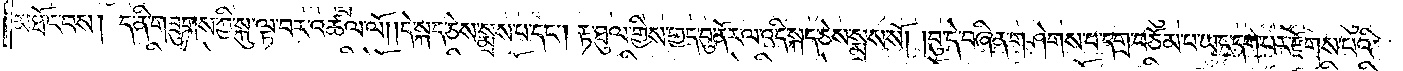མཐོང་བས། ད་ནི་གཟུགས་ཀྱི་སྐུ་ལྟ་བར་འཚལ་ལོ། །དེ་སྐད་ཅེས་སྨྲས་པ་དང༌། རྟ་ཐུལ་གྱིས་གྱད་བུ་ནོར་ལ་འདི་སྐད་ཅེས་སྨྲས་སོ། །བུ་དེ་བཞིན་གཤེགས་པ་དགྲ་བཅོམ་པ་ཡང་དག་པར་རྫོགས་པའི་
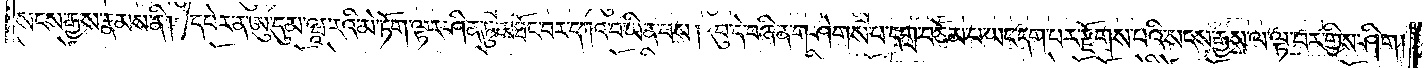སངས་རྒྱས་རྣམས་ནི། དཔེར་ན་ཨུ་དུམ་ཝཱ་རའི་མེ་ཏོག་ལྟར་ཤིན་ཏུ་མཐོང་བར་དཀའ་བ་ཡིན་པས། བུ་དེ་བཞིན་གཤེགས་པ་དགྲ་བཅོམ་པ་ཡང་དག་པར་རྫོགས་པའི་སངས་རྒྱས་ལ་ལྟ་བར་གྱིས་ཤིག །
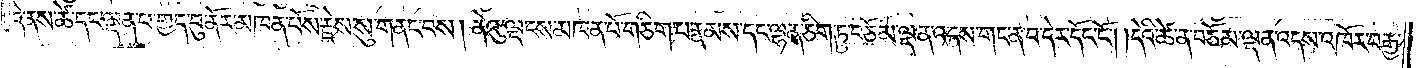དེ་ནས་ཚེ་དང་ལྡན་པ་གྱད་བུ་ནོར་མཁན་པོས་རྗེས་སུ་གནང་བས། ནེའུ་ལྡངས་མཁན་པོ་གཅིག་པ་རྣམས་དང་ལྷན་ཅིག་ཏུ་བཅོམ་ལྡན་འདས་གང་ན་བ་དེར་དོང་ངོ༌། །དེའི་ཚེ་ན་བཅོམ་ལྡན་འདས་འཁོར་བརྒྱ་
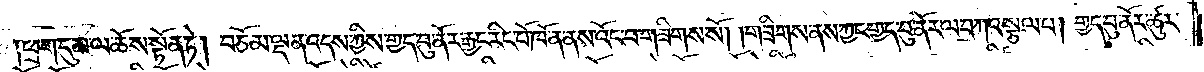ཕྲག་དུ་མ་ལ་ཆོས་སྟོན་ཏེ། བཅོམ་ལྡན་འདས་ཀྱིས་གྱད་བུ་ནོར་རྒྱང་རིང་པོ་ཁོ་ན་ནས་འོང་བ་གཟིགས་སོ། །གཟིགས་ནས་ཀྱང་གྱད་བུ་ནོར་ལ་བཀའ་སྩལ་པ། གྱད་བུ་ནོར་ཚུར་
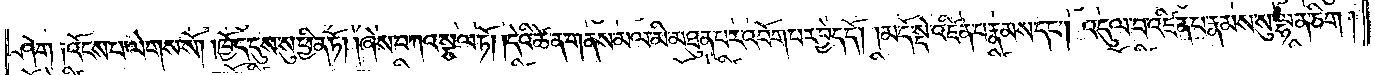ཤོག །འོངས་པ་ལེགས་སོ། །ཁྱོད་དུས་སུ་ཕྱིན་ཏོ། །ཞེས་བཀའ་སྩལ་ཏོ། །དེའི་ཚེ་ན་གནས་མལ་མི་མཐུན་པར་འབོག་པར་བྱེད་དོ། །མདོ་སྡེ་འཛིན་པ་རྣམས་དང༌། འདུལ་བ་འཛིན་པ་རྣམས་སུ་ལྷན་ཅིག།
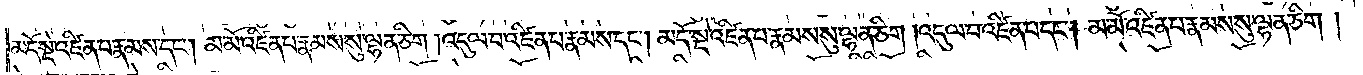མདོ་སྡེ་འཛིན་པ་རྣམས་དང༌། མ་མོ་འཛིན་པ་རྣམས་སུ་ལྷན་ཅིག །འདུལ་བ་འཛིན་པ་རྣམས་དང༌། མདོ་སྡེ་འཛིན་པ་རྣམས་སུ་ལྷན་ཅིག །འདུལ་བ་འཛིན་པ་དང༌། མ་མོ་འཛིན་པ་རྣམས་སུ་ལྷན་ཅིག །
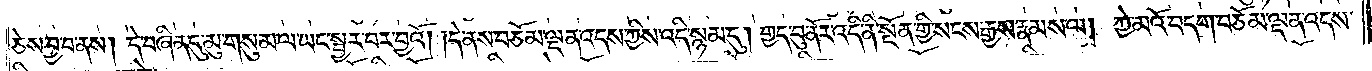ཅེས་བྱ་བ་ནས། དེ་བཞིན་དུ་མུ་གསུམ་ལ་ཡང་སྦྱར་བར་བྱའོ། །དེ་ནས་བཅོམ་ལྡན་འདས་ཀྱིས་འདི་སྙམ་དུ། གྱད་བུ་ནོར་འདི་ནི་སྔོན་གྱི་སངས་རྒྱས་རྣམས་ལ། ཀྱེ་མའོ་བདག་བཅོམ་ལྡན་འདས་
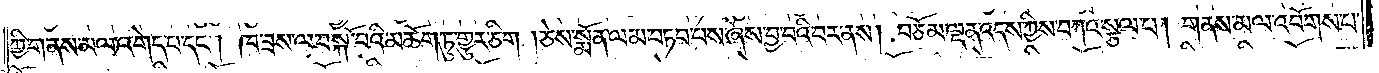ཀྱི་གནས་མལ་འགེད་པ་དང༌། ཁ་ཟས་ལ་བསྐོ་བའི་མཆོག་ཏུ་གྱུར་ཅིག །ཅེས་སྨོན་ལམ་བཏབ་པས་ཞེས་བྱ་བའི་བར་ནས། བཅོམ་ལྡན་འདས་ཀྱིས་བཀའ་སྩལ་པ། གནས་མལ་འབོགས་པ་
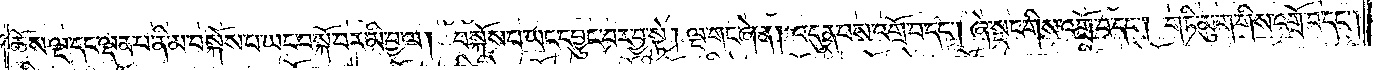ཆོས་ལྔ་དང་ལྡན་པ་ནི་མ་བསྐོས་པ་ཡང་བསྐོ་བར་མི་བྱ་ལ། བསྐོས་པ་ཡང་དབྱུང་བར་བྱ་སྟེ། ལྔ་གང་ཞེ་ན། འདུན་པས་འགྲོ་བ་དང༌། ཞེ་སྡང་གིས་འགྲོ་བ་དང༌། གཏི་མུག་གིས་འགྲོ་བ་དང༌།
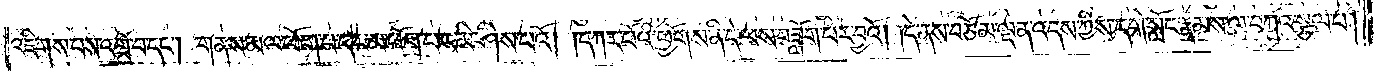འཇིགས་པས་འགྲོ་བ་དང༌། གནས་མལ་ཕོག་པ་དང་མ་ཕོག་པར་མི་ཤེས་པའོ། །དཀར་པོའི་ཕྱོགས་ནི་དེ་ལས་བཟློག་པར་བྱའོ། །དེ་ནས་བཅོམ་ལྡན་འདས་ཀྱིས་དགེ་སློང་རྣམས་ལ་བཀའ་སྩལ་པ།
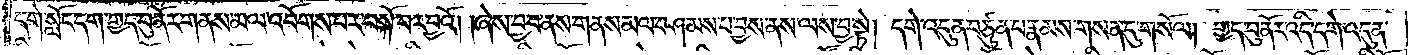དགེ་སློང་དག་གྱད་བུ་ནོར་གནས་མལ་འབོགས་པར་བསྐོ་བར་བྱའོ། །ཞེས་བྱ་བ་ནས་གནས་མལ་བཤམས་པ་བྱས་ནས་ལས་བྱ་སྟེ། དགེ་འདུན་བཙུན་པ་རྣམས་གསན་དུ་གསོལ། གྱད་བུ་ནོར་འདི་དགེ་འདུན་
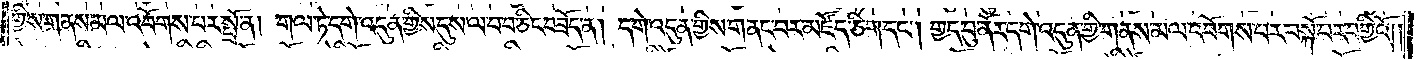གྱིས་གནས་མལ་འབོགས་པར་སྤྲོ་ན། གལ་ཏེ་དགེ་འདུན་གྱིས་དུས་ལ་བབ་ཅིང་བཟོད་ན། དགེ་འདུན་གྱིས་གནང་བར་མཛོད་ཅིག་དང༌། གྱད་བུ་ནོར་དགེ་འདུན་གྱི་གནས་མལ་འབོགས་པར་བསྐོ་བར་བགྱིའོ། །
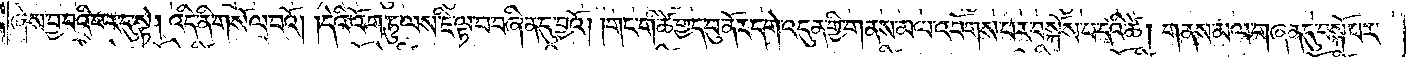ཞེས་བྱ་བའི་བར་དུ་སྟེ། འདི་ནི་གསོལ་བའོ། །དེའི་འོག་ཏུ་ལས་ཇི་ལྟ་བ་བཞིན་དུ་བྱའོ། །གང་གི་ཚེ་གྱད་བུ་ནོར་དགེ་འདུན་གྱི་གནས་མལ་འབོགས་པར་བསྐོས་པ་དའི་ཚེ། གནས་མལ་གཞན་དུ་བསྐོ་བར་
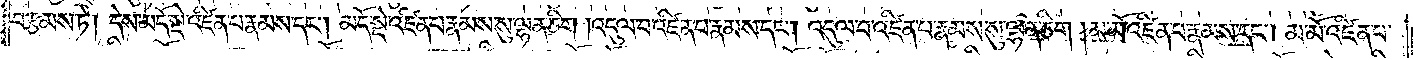བརྩམས་ཏེ། དེས་མདོ་སྡེ་འཛིན་པ་རྣམས་དང༌། མདོ་སྡེ་འཛིན་པ་རྣམས་སུ་ལྷན་ཅིག །འདུལ་བ་འཛིན་པ་རྣམས་དང༌། འདུལ་བ་འཛིན་པ་རྣམས་སུ་ལྷན་ཅིག །མ་མོ་འཛིན་པ་རྣམས་དང༌། མ་མོ་འཛིན་པ་
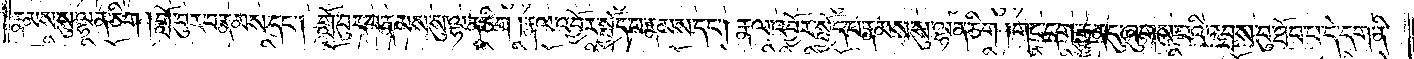རྣམས་སུ་ལྷན་ཅིག །གློ་བུར་བ་རྣམས་དང༌། གློ་བུར་བ་རྣམས་སུ་ལྷན་ཅིག །རྣལ་འབྱོར་སྤྱོད་པ་རྣམས་དང༌། རྣལ་འབྱོར་སྤྱོད་པ་རྣམས་སུ་ལྷན་ཅིག །གང་དག་རྒྱུན་དུ་ཞུགས་པའི་འབྲས་བུ་ཐོབ་པ་དེ་དག་ནི་
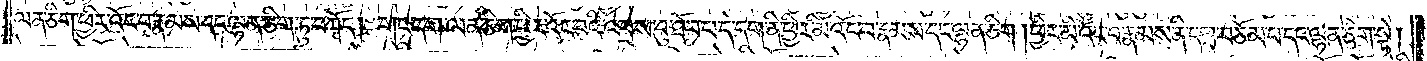ལན་ཅིག་ཕྱིར་འོང་བ་རྣམས་དང་ལྷན་ཅིག་ཏུ་བཀོད། གང་དག་ལན་ཅིག་ཕྱིར་འོང་བའི་འབྲས་བུ་ཐོབ་པ་དེ་དག་ནི་ཕྱིར་མི་འོང་བ་རྣམས་དང་ལྷན་ཅིག །ཕྱིར་མི་འོང་བ་རྣམས་ནི་དགྲ་བཅོམ་པ་དང་ལྷན་ཅིག་སྟེ།
